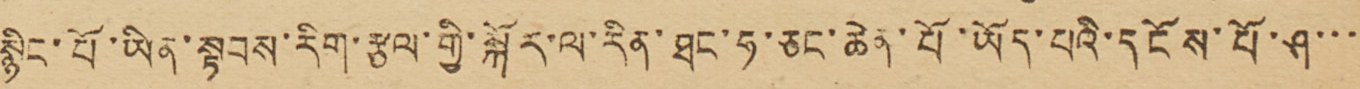སྙིང་པོ་ཡིན་སྟབས་རིག་རྩལ་གྱི་སྐོར་ལ་རིན་ཐང་ཧ་ཅང་ཆེན་པོ་ཡོད་པའི་དངོས་པོ་ཤ་་་་
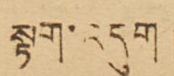སྟག་འདུག།།
